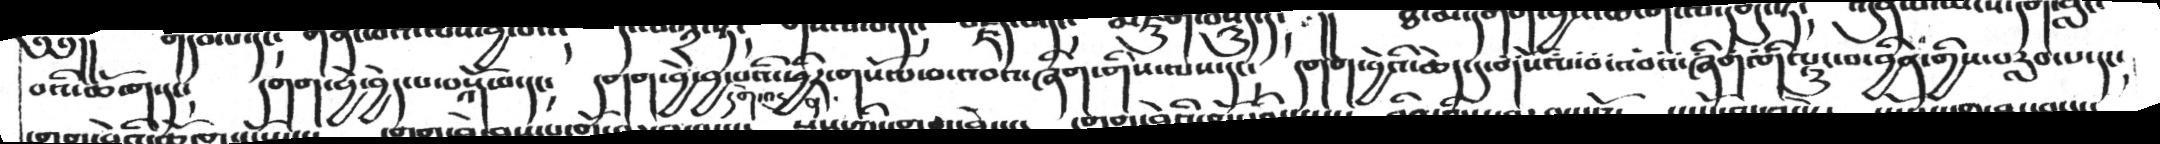བའི་ཆོ་ག་དང༴   དགག་བྱེ་བྱེད་པ་བསྐོ་བ་དང༴  དགག་བྱེ་བྱ་པའི་ཕྱིར་གསོལ་བ་འབའ་ཞིག་གིས་ལས་དང༴  དགག་བྱེའི་ཆེད་དུ་དགསོལ་བ་འབའ་ཞིག་གི་ལྟུང་བ་བྱིན་གྱིས་བརླབ་པ་དང༴
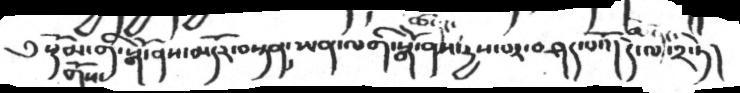༄  སྡོམ་གི་སྒོ་ནས་མདོར་བསྟན་ཡན་ལགི་སྒོ་ནས་དྱས་པར་བཤད་པའོ།  དེ་ལ་༢་ཏེ།
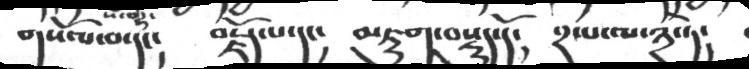གསོལ་བ་དང༴   བརྗོད་པ་དང༴  མཇུག་བསྡུད་དོ༴   ༢་པ་ལ་༣་ཏེ༴
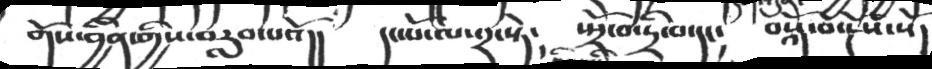གོས་བྱིན་གྱིས་བརླབ་པའོ།།  དང་པོ་ལ་༢་སྟེ།  སྤྲོ་བ་དྲི་བ་དང།  བསྐོ་བ་སྤོས་སོ།
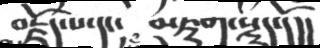བརྗོད་པ་དང་   མཇུག་སྡུད་དོ།།
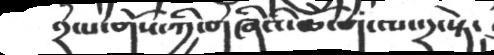༢་པ་གོས་ཀྱི་གཞིའི་ཆོ་ག་ལ་དྲ་སྟེ།
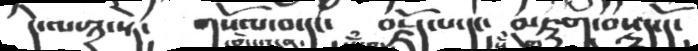དེ་ལ་༣་སྟེ༴   གསོལ་བ་དང༴   བརྗོད་པ་དང༴  མཇུག་བསྡུད་དོ༴
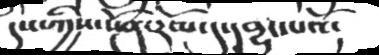དང་ཀྱིས་སྔོན་རོལ་དུ་དབྱུང་པའོ།
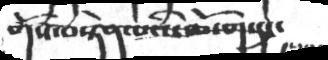གོས་བསྟེན་པའི་ཆོ་ག་དང་
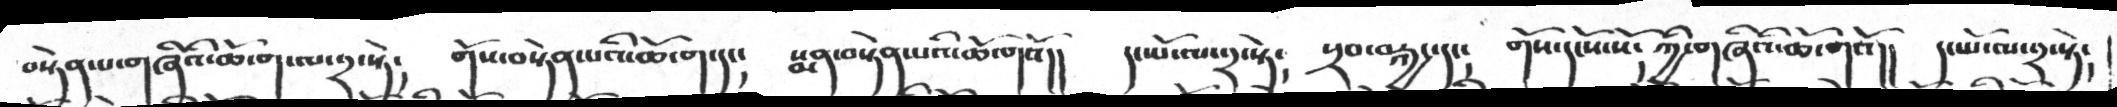བསྟེན་གཞིའི་ཆོ་ག་ལ་༢་སྟེ།  གོས་བསྟེན་པའི་ཆོ་ག་དང།  སྨན་བསྟེན་པའི་ཆོ་གའོ།།  དང་པོ་ལ་༢་སྟེ།  སྲབ་བསྐྱང་དང།  གོས་དངོས་སོཀྱི་གཞིའི་ཆོ་གའོ།།  དང་པོ་ལ་༢་སྟེ།
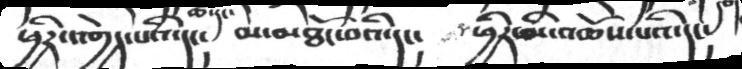ཕྱིར་འགྱེད་པའི་དང༴  མ་མཐོང་བའི་དང༴   ཕྱིར་མི་འཆོས་པའི་དང༴
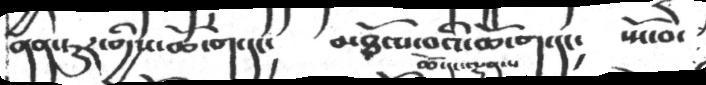ནན་ཏུར་གྱིས་ཆོ་ག་དང༴  མཐོལ་བའི་ཆོ་ག་དང༴  སྤོ་བ་
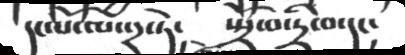དང་པོ་ལ་༢་ཏེ།  སྤྲོ་བ་དྲི་བདང།
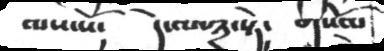ལས་སོ།  དེ་ལ་༢་སྟེ།   གསོལ
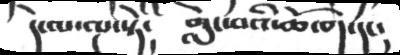དེ་ལ་ལྔ་སྟེ།  གླེང་བའི་ཆོ་ག་དང།
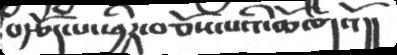བརྩོད་པ་ཕྱིར་བཅོས་པའི་ཆོ་གའོ།།
